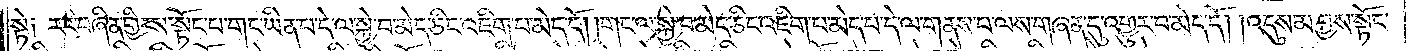སྟེ། རང་བཞིན་གྱིས་སྟོང་པ་གང་ཡིན་པ་དེ་ལ་སྐྱེ་བ་མེད་ཅིང་འཇིག་པ་མེད་དོ། །གང་ལ་སྐྱེ་བ་མེད་ཅིང་འཇིག་པ་མེད་པ་དེ་ལ་གནས་པ་ལས་གཞན་དུ་འགྱུར་བ་མེད་དོ། །འདུས་མ་བྱས་སྟོང་
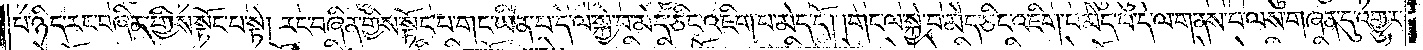པ་ཉིད་རང་བཞིན་གྱིས་སྟོང་པ་སྟེ། རང་བཞིན་གྱིས་སྟོང་པ་གང་ཡིན་པ་དེ་ལ་སྐྱེ་བ་མེད་ཅིང་འཇིག་པ་མེད་དོ། །གང་ལ་སྐྱེ་བ་མེད་ཅིང་འཇིག་པ་མེད་པ་དེ་ལ་གནས་པ་ལས་གཞན་དུ་འགྱུར་
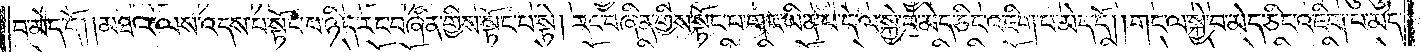བ་མེད་དོ། །མཐའ་ལས་འདས་པ་སྟོང་པ་ཉིད་རང་བཞིན་གྱིས་སྟོང་པ་སྟེ། རང་བཞིན་གྱིས་སྟོང་པ་གང་ཡིན་པ་དེ་ལ་སྐྱེ་བ་མེད་ཅིང་འཇིག་པ་མེད་དོ། །གང་ལ་སྐྱེ་བ་མེད་ཅིང་འཇིག་པ་མེད་
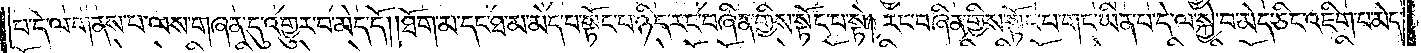པ་དེ་ལ་གནས་པ་ལས་གཞན་དུ་འགྱུར་བ་མེད་དོ། །ཐོག་མ་དང་ཐ་མ་མེད་པ་སྟོང་པ་ཉིད་རང་བཞིན་གྱིས་སྟོང་པ་སྟེ། རང་བཞིན་གྱིས་སྟོང་པ་གང་ཡིན་པ་དེ་ལ་སྐྱེ་བ་མེད་ཅིང་འཇིག་པ་མེད་
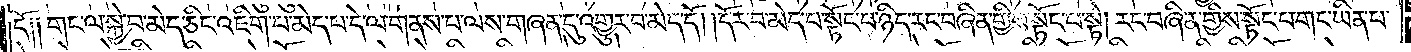དོ༑ ༑གང་ལ་སྐྱེ་བ་མེད་ཅིང་འཇིག་པ་མེད་པ་དེ་ལ་གནས་པ་ལས་གཞན་དུ་འགྱུར་བ་མེད་དོ། །དོར་བ་མེད་པ་སྟོང་པ་ཉིད་རང་བཞིན་གྱིས་སྟོང་པ་སྟེ། རང་བཞིན་གྱིས་སྟོང་པ་གང་ཡིན་པ་
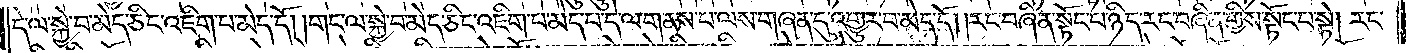དེ་ལ་སྐྱེ་བ་མེད་ཅིང་འཇིག་པ་མེད་དོ། །གང་ལ་སྐྱེ་བ་མེད་ཅིང་འཇིག་པ་མེད་པ་དེ་ལ་གནས་པ་ལས་གཞན་དུ་འགྱུར་བ་མེད་དོ། །རང་བཞིན་སྟོང་པ་ཉིད་རང་བཞིན་གྱིས་སྟོང་པ་སྟེ། རང་
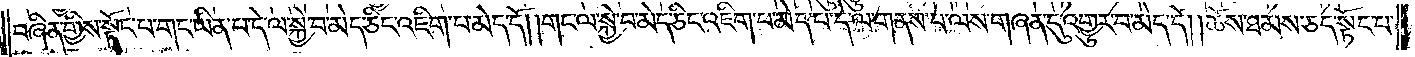བཞིན་གྱིས་སྟོང་པ་གང་ཡིན་པ་དེ་ལ་སྐྱེ་བ་མེད་ཅིང་འཇིག་པ་མེད་དོ། །གང་ལ་སྐྱེ་བ་མེད་ཅིང་འཇིག་པ་མེད་པ་དེ་ལ་གནས་པ་ལས་གཞན་དུ་འགྱུར་བ་མེད་དོ། །ཆོས་ཐམས་ཅད་སྟོང་པ་
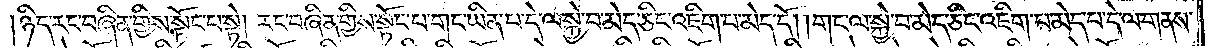ཉིད་རང་བཞིན་གྱིས་སྟོང་པ་སྟེ། རང་བཞི་གྱིས་སྟོང་པ་གང་ཡིན་པ་དེ་ལ་སྐྱེ་བ་མེད་ཅིང་འཇིག་པ་མེད་དོ། །གང་ལ་སྐྱེ་བ་མེད་ཅིང་འཇིག་པ་མེད་པ་དེ་ལ་གནས་
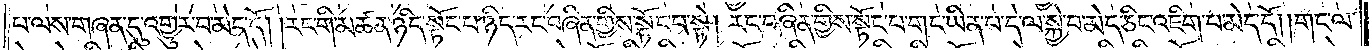པ་ལས་གཞན་དུ་འགྱུར་བ་མེད་དོ། །རང་གི་མཚན་ཉིད་སྟོང་པ་ཉིད་རང་བཞིན་གྱིས་སྟོང་པ་སྟེ། རང་བཞིན་གྱིས་སྟོང་པ་གང་ཡིན་པ་དེ་ལ་སྐྱེ་བ་མེད་ཅིང་འཇིག་པ་མེད་དོ། །གང་ལ་
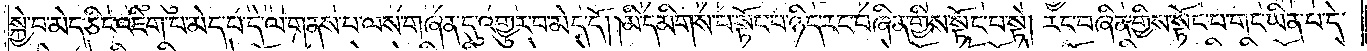སྐྱེ་བ་མེད་ཅིང་འཇིག་པ་མེད་པ་དེ་ལ་གནས་པ་ལས་གཞན་དུ་འགྱུར་བ་མེད་དོ། །མི་དམིགས་པ་སྟོང་པ་ཉིད་རང་བཞིན་གྱིས་སྟོང་པ་སྟེ། རང་བཞིན་གྱིས་སྟོང་པ་གང་ཡིན་པ་དེ་
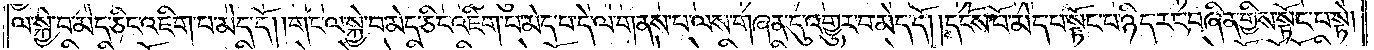ལ་སྐྱེ་བ་མེད་ཅིང་འཇིག་པ་མེད་དོ། །གང་ལ་སྐྱེ་བ་མེད་ཅིང་འཇིག་པ་མེད་པ་དེ་ལ་གནས་པ་ལས་གཞན་དུ་འགྱུར་བ་མེད་དོ། །དངོས་པོ་མེད་པ་སྟོང་པ་ཉིད་རང་བཞིན་གྱིས་སྟོང་པ་སྟེ།
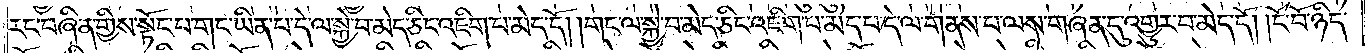རང་བཞིན་གྱིས་སྟོང་པ་གང་ཡིན་པ་དེ་ལ་སྐྱེ་བ་མེད་ཅིང་འཇིག་པ་མེད་དོ། །གང་ལ་སྐྱེ་བ་མེད་ཅིང་འཇིག་པ་མེད་པ་དེ་ལ་གནས་པ་ལས་གཞན་དུ་འགྱུར་བ་མེད་དོ། །ངོ་བོ་ཉིད་
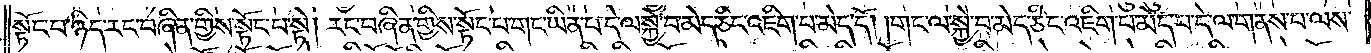སྟོང་པ་ཉིད་རང་བཞིན་གྱིས་སྟོང་པ་སྟེ། རང་བཞིན་གྱིས་སྟོང་པ་གང་ཡིན་པ་དེ་ལ་སྐྱེ་བ་མེད་ཅིང་འཇིག་པ་མེད་དོ། །གང་ལ་སྐྱེ་བ་མེད་ཅིང་འཇིག་པ་མེད་པ་དེ་ལ་གནས་པ་ལས་
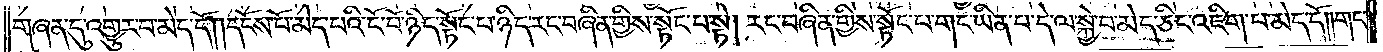གཞན་དུ་འགྱུར་བ་མེད་དོ། །དངོས་པོ་མེད་པའི་ངོ་བོ་ཉིད་སྟོང་པ་ཉིད་རང་བཞིན་གྱིས་སྟོང་པ་སྟེ། རང་བཞིན་གྱིས་སྟོང་པ་གང་ཡིན་པ་དེ་ལ་སྐྱེ་བ་མེད་ཅིང་འཇིག་པ་མེད་དོ། །གང་
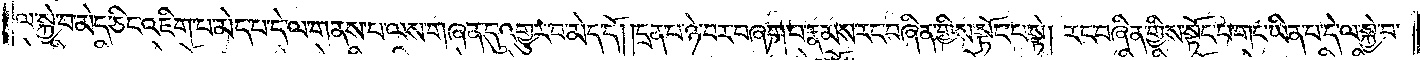ལ་སྐྱེ་བ་མེད་ཅིང་འཇིག་པ་མེད་པ་དེ་ལ་གནས་པ་ལས་གཞན་དུ་འགྱུར་བ་མེད་དོ། །དྲན་པ་ཉེ་བར་བཞག་པ་རྣམས་རང་བཞིན་གྱིས་སྟོང་པ་སྟེ། རང་བཞིན་གྱིས་སྟོང་པ་གང་ཡིན་པ་དེ་ལ་སྐྱེ་བ་
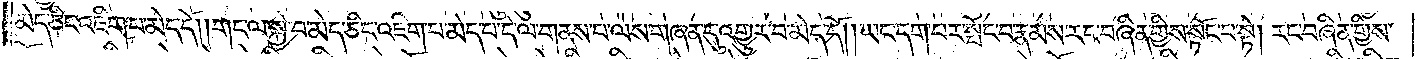མེད་ཅིང་འཇིག་པ་མེད་དོ། །གང་ལ་སྐྱེ་བ་མེད་ཅིང་འཇིག་པ་མེད་པ་དེ་ལ་གནས་པ་ལས་གཞན་དུ་འགྱུར་བ་མེད་དོ། །ཡང་དག་པར་སྤོང་བ་རྣམས་རང་བཞིན་གྱིས་སྟོང་པ་སྟེ། རང་བཞིན་གྱིས་
